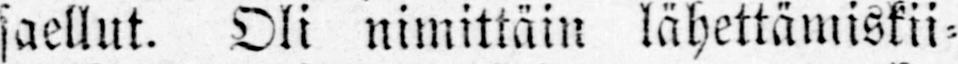jaellut. Oli nimittäin lähettämiskii-
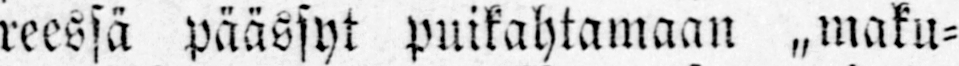reessä päässyt puikahtamaan „maku-
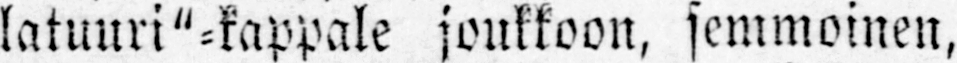latuuri"-kappale joukkoon, semmoinen,
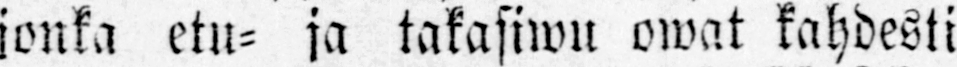jonka etu- ja takasiwu owat kahdesti
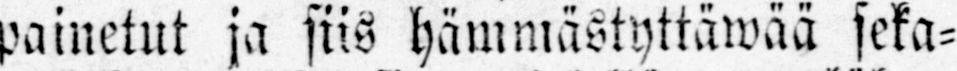painetut ja siis hämmästyttäwää seka-
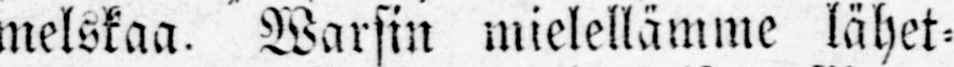melskaa. Warsin mielellämme lähet-
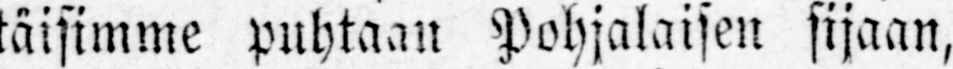täisimme puhtaan Pohjalaisen sijaan,
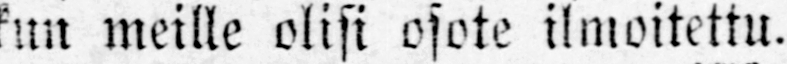kun meille olisi osote ilmoitettu.
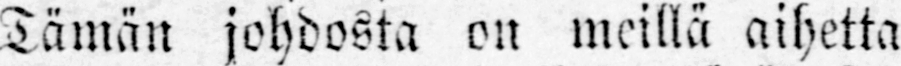Tämän johdosta on meillä aihetta
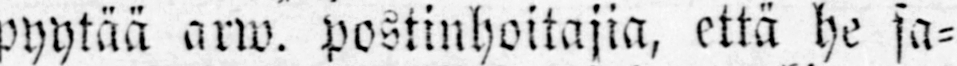pyytää anw. postinhoitajia, että he sa-
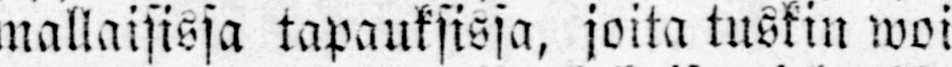mallaisissa tapauksissa, joita tuskin woi
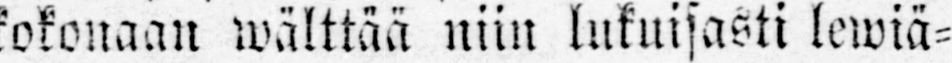kokonaan wälttää niin lukuisasti lewiä-
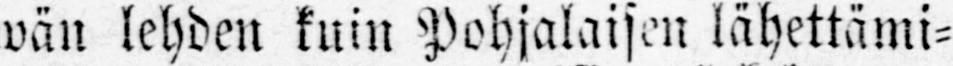wän lehden kuin Pohjalaisen lähettämi-
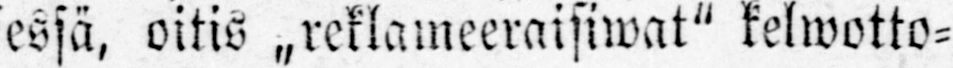sessä, oitis „reklameeraisiwat" kelwotto-
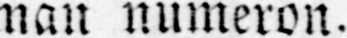man numeron.
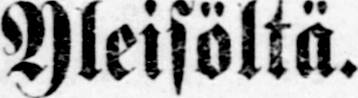Yleisöltä.
